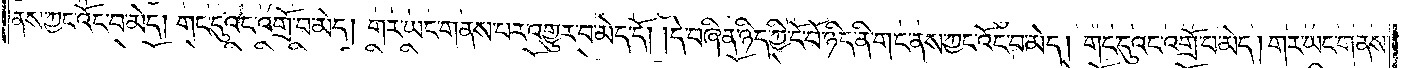ནས་ཀྱང་འོང་བ་མེད། གང་དུའང་འགྲོ་བ་མེད། གར་ཡང་གནས་པར་འགྱུར་བ་མེད་དོ། །དེ་བཞིན་ཉིད་ཀྱི་ངོ་བོ་ཉིད་ནི་གང་ནས་ཀྱང་འོང་བ་མེད། གང་དུའང་འགྲོ་བ་མེད། གར་ཡང་གནས་
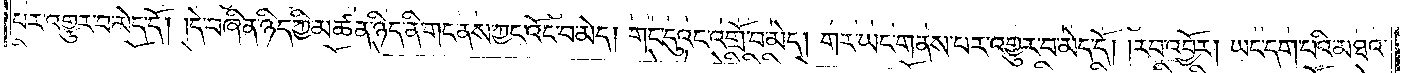པར་འགྱུར་བ་མེད་དོ། །དེ་བཞིན་ཉིད་ཀྱི་མཚན་ཉིད་ནི་གང་ནས་ཀྱང་འོང་བ་མེད། གང་དུའང་འགྲོ་བ་མེད། གར་ཡང་གནས་པར་འགྱུར་བ་མེད་དོ། །རབ་འབྱོར། ཡང་དག་པའི་མཐའ་
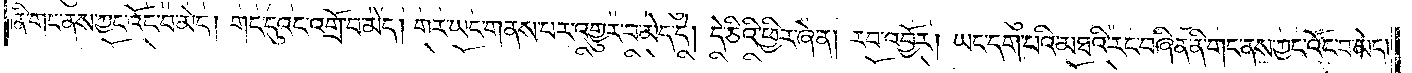ནི་གང་ནས་ཀྱང་འོང་བ་མེད། གང་དུའང་འགྲོ་བ་མེད། གར་ཡང་གནས་པར་འགྱུར་བ་མེད་དེ། དེ་ཅིའི་ཕྱིར་ཞེ་ན། རབ་འབྱོར། ཡང་དག་པའི་མཐའི་རང་བཞིན་ནི་གང་ནས་ཀྱང་འོང་བ་མེད།
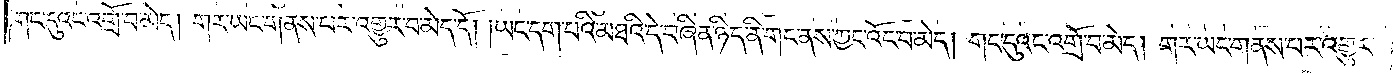གང་དུའང་འགྲོ་བ་མེད། གར་ཡང་གནས་པར་འགྱུར་བ་མེད་དོ། །ཡང་དག་པའི་མཐའི་དེ་བཞིན་ཉིད་ནི་གང་ནས་ཀྱང་འོང་བ་མེད། གང་དུའང་འགྲོ་བ་མེད། གར་ཡང་གནས་པར་འགྱུར་
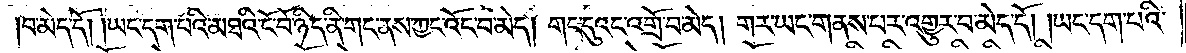བ་མེད་དོ། །ཡང་དག་པའི་མཐའི་ངོ་བོ་ཉིད་ནི་གང་ནས་ཀྱང་འོང་བ་མེད། གང་དུའང་འགྲོ་བ་མེད། གར་ཡང་གནས་པར་འགྱུར་བ་མེད་དོ། །ཡང་དག་པའི་
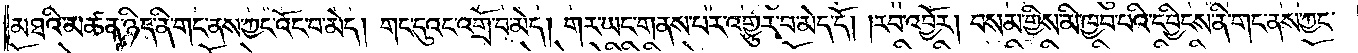མཐའི་མཚན་ཉིད་ནི་གང་ནས་ཀྱང་འོང་བ་མེད། གང་དུའང་འགྲོ་བ་མེད། གར་ཡང་གནས་པར་འགྱུར་བ་མེད་དོ། །རབ་འབྱོར། བསམ་གྱིས་མི་ཁྱབ་པའི་དབྱིངས་ནི་གང་ནས་ཀྱང་
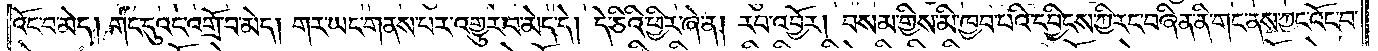འོང་བ་མེད། གང་དུའང་འགྲོ་བ་མེད། གར་ཡང་གནས་པར་འགྱུར་བ་མེད་དེ། དེ་ཅིའི་ཕྱིར་ཞེ་ན། རབ་འབྱོར། བསམ་གྱིས་མི་ཁྱབ་པའི་དབྱིངས་ཀྱི་རང་བཞིན་ནི་གང་ནས་ཀྱང་འོང་བ་
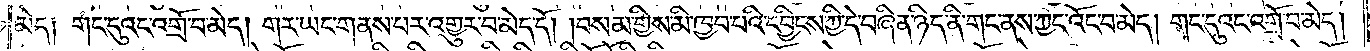མེད། གང་དུའང་འགྲོ་བ་མེད། གར་ཡང་གནས་པར་འགྱུར་བ་མེད་དོ། །བསམ་གྱིས་མི་ཁྱབ་པའི་དབྱིངས་ཀྱི་དེ་བཞིན་ཉིད་ནི་གང་ནས་ཀྱང་འོང་བ་མེད། གང་དུའང་འགྲོ་བ་མེད།
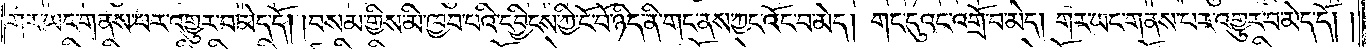གར་ཡང་གནས་པར་འགྱུར་བ་མེད་དོ། །བསམ་གྱིས་མི་ཁྱབ་པའི་དབྱིངས་ཀྱི་ངོ་བོ་ཉིད་ནི་གང་ནས་ཀྱང་འོང་བ་མེད། གང་དུའང་འགྲོ་བ་མེད། གར་ཡང་གནས་པར་འགྱུར་བ་མེད་དོ། །
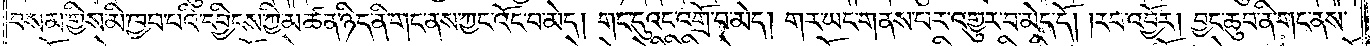བསམ་གྱིས་མི་ཁྱབ་པའི་དབྱིངས་ཀྱི་མཚན་ཉིད་ནི་གང་ནས་ཀྱང་འོང་བ་མེད། གང་དུའང་འགྲོ་བ་མེད། གར་ཡང་གནས་པར་འགྱུར་བ་མེད་དོ། །རབ་འབྱོར། བྱང་ཆུབ་ནི་གང་ནས་
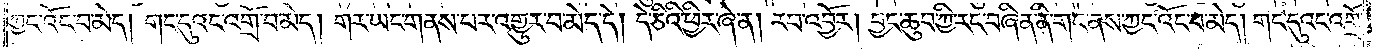ཀྱང་འོང་བ་མེད། གང་དུའང་འགྲོ་བ་མེད། གར་ཡང་གནས་པར་འགྱུར་བ་མེད་དེ། དེ་ཅིའི་ཕྱིར་ཞེ་ན། རབ་འབྱོར། བྱང་ཆུབ་ཀྱི་རང་བཞིན་ནི་གང་ནས་ཀྱང་འོང་བ་མེད། གང་དུའང་འགྲོ་
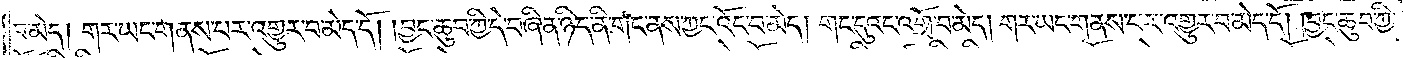བ་མེད། གར་ཡང་གནས་པར་འགྱུར་བ་མེད་དོ། །བྱང་ཆུབ་ཀྱི་དེ་བཞིན་ཉིད་ནི་གང་ནས་ཀྱང་འོང་བ་མེད། གང་དུའང་འགྲོ་བ་མེད། གར་ཡང་གནས་པར་འགྱུར་བ་མེད་དོ། །བྱང་ཆུབ་ཀྱི་
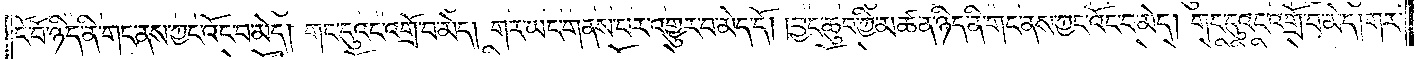ངོ་བོ་ཉིད་ནི་གང་ནས་ཀྱང་འོང་བ་མེད། གང་དུའང་འགྲོ་བ་མེད། གར་ཡང་གནས་པར་འགྱུར་བ་མེད་དོ། །བྱང་ཆུབ་ཀྱི་མཚན་ཉིད་ནི་གང་ནས་ཀྱང་འོང་བ་མེད། གང་དུའང་འགྲོ་བ་མེད། གར་
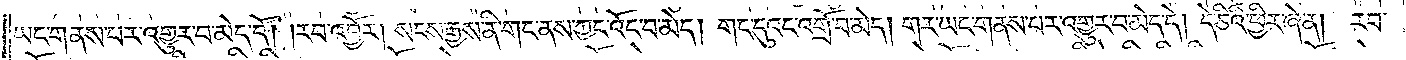ཡང་གནས་པར་འགྱུར་བ་མེད་དོ། །རབ་འབྱོར། སངས་རྒྱས་ནི་གང་ནས་ཀྱང་འོང་བ་མེད། གང་དུའང་འགྲོ་བ་མེད། གར་ཡང་གནས་པར་འགྱུར་བ་མེད་དེ། དེ་ཅིའི་ཕྱིར་ཞེ་ན། རབ་
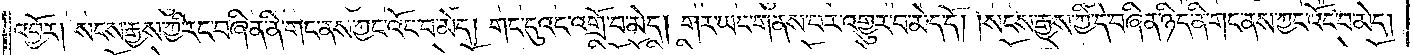འབྱོར། སངས་རྒྱས་ཀྱི་རང་བཞིན་ནི་གང་ནས་ཀྱང་འོང་བ་མེད། གང་དུའང་འགྲོ་བ་མེད། གར་ཡང་གནས་པར་འགྱུར་བ་མེད་དོ། །སངས་རྒྱས་ཀྱི་དེ་བཞིན་ཉིད་ནི་གང་ནས་ཀྱང་འོང་བ་མེད།
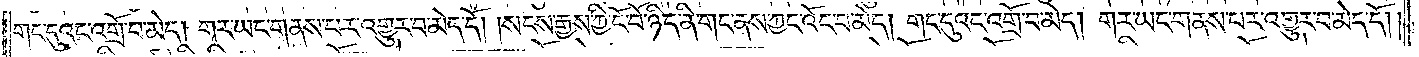གང་དུའང་འགྲོ་བ་མེད། གར་ཡང་གནས་པར་འགྱུར་བ་མེད་དོ། །སངས་རྒྱས་ཀྱི་ངོ་བོ་ཉིད་ནི་གང་ནས་ཀྱང་འོང་བ་མེད། གང་དུའང་འགྲོ་བ་མེད། གར་ཡང་གནས་པར་འགྱུར་བ་མེད་དོ། །
